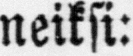neiksi:
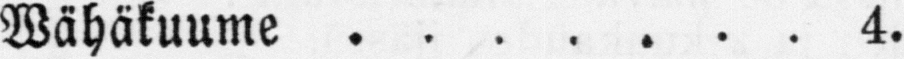Wähäkuume 4.
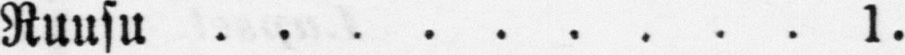Ruusu l.
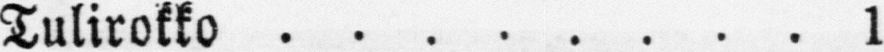Tulirokko 1
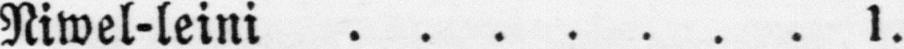Niwel-leini 1.
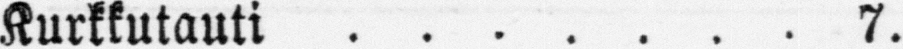Kurkkutauti 7.
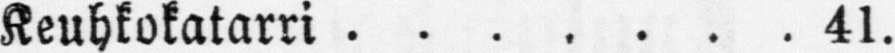Keuhkokatarri 41.
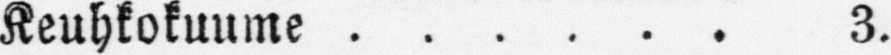Keuhkokuume 3.
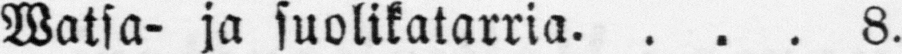Watsa- ja suolikatarria 8.
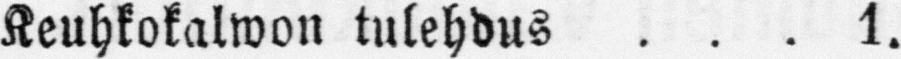Keuhkokalwon tulehdus 1.
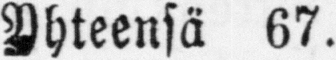Yhteensä 67.
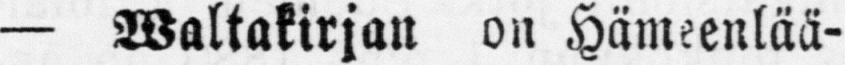— Waltakirjan on Hämeenlää-
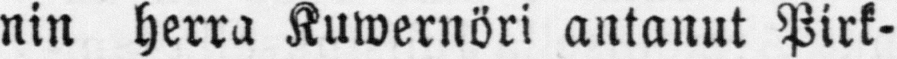nin herra Kuwernöri antanut Pirk-
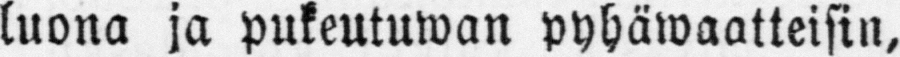luona ja pukeutuwan pyhäwaatteisin,
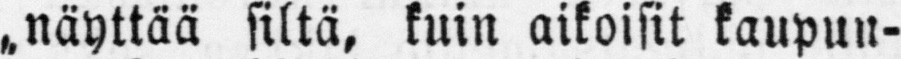„näyttää' siltä, kuin aikoisit kaupun-
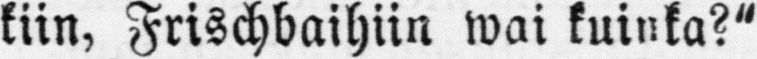kiin, Frischbaihiin wai kuinka?"
